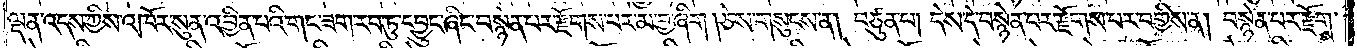ལྡན་འདས་ཀྱིས་འཁོར་སུན་འབྱིན་པའི་གང་ཟག་རབ་ཏུ་དབྱུང་ཞིང་བསྙེན་པར་རྫོགས་པར་མ་བྱ་ཞིག །ཅེས་གསུངས་ན། བཙུན་པ། དེས་དེ་བསྙེན་པར་རྫོགས་པར་བགྱིས་ན། བསྙེན་པར་རྫོགས་
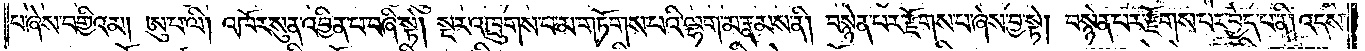པ་ཞེས་བགྱིའམ། ཨུ་པ་ལི། འཁོར་སུན་འབྱིན་པ་བཞི་སྟེ། སྔར་འཁྲུགས་པ་མ་གཏོགས་པའི་ལྷག་མ་རྣམས་ནི། བསྙེན་པར་རྫོགས་པ་ཞེས་བྱ་སྟེ། བསྙེན་པར་རྫོགས་པར་བྱེད་པ་ནི། འདས་
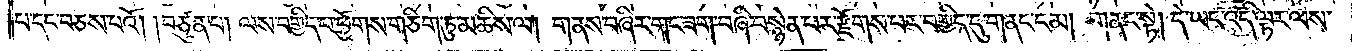པ་དང་བཅས་པའོ། །བཙུན་པ། ལས་བགྱིད་པ་ཕྱོགས་གཅིག་ཏུ་མཆིས་ལ། གནས་བཞིར་གང་ཟག་བཞི་བསྙེན་པར་རྫོགས་པར་བགྱིད་དུ་གནང་ངམ། གནང་སྟེ། དེ་ཡང་འདི་ལྟར་ལས་
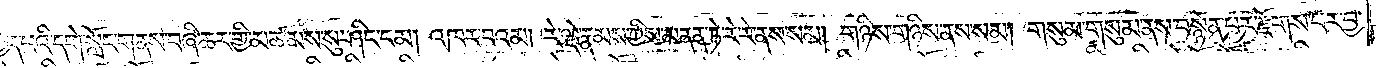བྱེད་པའི་དགེ་སློང་གནས་བཞི་ཆར་གྱི་མཚམས་སུ་ཤིང་ངམ། འཁར་བའམ། རེ་ལྡེ་རྣམས་ཀྱིས་མནན་ཏེ་རེ་རེ་ནས་སམ། གཉིས་གཉིས་ནས་སམ། གསུམ་གསུམ་ནས་བསྙེན་པར་རྫོགས་པར་བྱ་
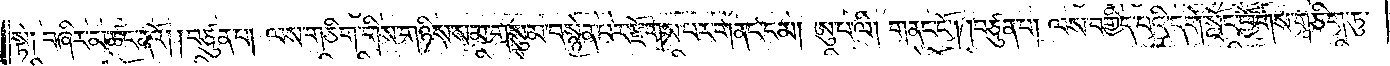སྟེ། བཞིར་མཚང་ནའོ། །བཙུན་པ། ལས་གཅིག་གིས་གཉིས་སམ་གསུམ་བསྙེན་པར་རྫོགས་པར་གནང་ངམ། ཨུ་པ་ལི། གནང་ངོ༌། །བཙུན་པ། ལས་བགྱིད་པའི་དགེ་སློང་ཕྱོགས་གཅིག་ཏུ་
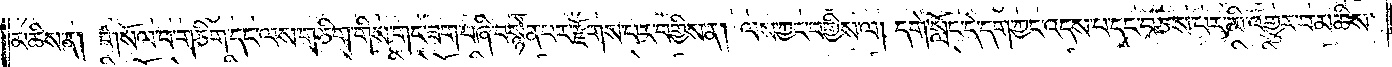མཆིས་ན། གསོལ་བ་གཅིག་དང་ལས་གཅིག་གིས་གང་ཟག་བཞི་བསྙེན་པར་རྫོགས་པར་བགྱིས་ན། ལས་ཀྱང་བགྱིས་ལ། དགེ་སློང་དེ་དག་ཀྱང་འདས་པ་དང་བཅས་པར་མི་འགྱུར་བ་མཆིས་
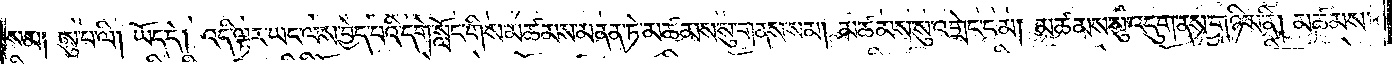སམ༑ ཨུ་པ་ལི། ཡོད་དེ། འདི་ལྟར་ཡང་ལས་བྱེད་པའི་དགེ་སློང་གིས་མཚམས་མནན་ཏེ་མཚམས་སུ་གནས་སམ། མཚམས་སུ་འགྲེང་ངམ། མཚམས་སུ་འདུག་ནས་གཉིས་ནི། མཚམས་
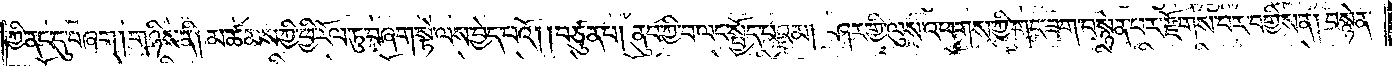ཀྱི་ནང་དུ་བཞག །གཉིས་ནི། མཚམས་ཀྱི་ཕྱི་རོལ་ཏུ་བཞག་སྟེ་ལས་བྱེད་པའོ། །བཙུན་པ། ནུབ་ཀྱི་བ་ལང་སྤྱོད་པའམ། ཤར་གྱི་ལུས་འཕགས་ཀྱི་གང་ཟག་བསྙེན་པར་རྫོགས་པར་བགྱིས་ན། བསྙེན་
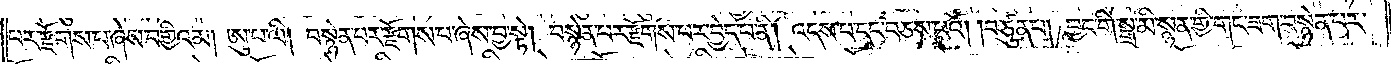པར་རྫོགས་པ་ཞེས་བགྱིའམ། ཨུ་པ་ལི། བསྙེན་པར་རྫོགས་པ་ཞེས་བྱ་སྟེ། བསྙེན་པར་རྫོགས་པར་བྱེད་པ་ནི། འདས་པ་དང་བཅས་པའོ། །བཙུན་པ། བྱང་གི་སྒྲ་མི་སྙན་གྱི་གང་ཟག་བསྙེན་པར་
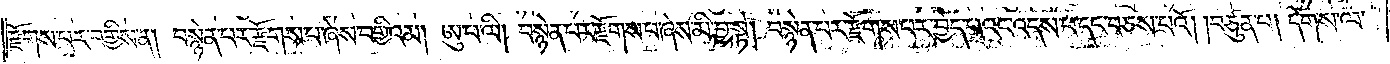རྫོགས་པར་བགྱིས་ན། བསྙེན་པར་རྫོགས་པ་ཞེས་བགྱིའམ། ཨུ་པ་ལི། བསྙེན་པར་རྫོགས་པ་ཞེས་མི་བྱ་སྟེ། བསྙེན་པར་རྫོགས་པར་བྱེད་པའང་འདས་པ་དང་བཅས་པའོ། །བཙུན་པ། དོགས་ལ་
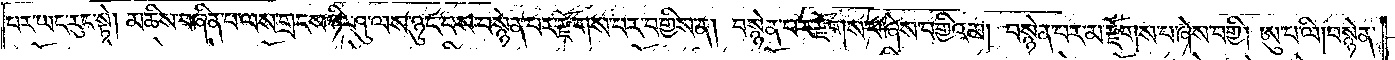པར་ཡང་རུང་སྟེ། མཆིས་བཞིན་པ་ལས་གྲངས་ཉི་ཤུ་ལས་ཉུང་བས་བསྙེན་པར་རྫོགས་པར་བགྱིས་ན། བསྙེན་པར་རྫོགས་པ་ཞེས་བགྱིའམ། བསྙེན་པར་མ་རྫོགས་པ་ཞེས་བགྱི། ཨུ་པ་ལི། བསྙེན་
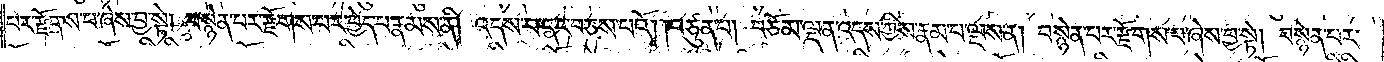པར་རྫོགས་པ་ཞེས་བྱ་སྟེ། བསྙེན་པར་རྫོགས་པར་བྱེད་པ་རྣམས་ནི། འདས་པ་དང་བཅས་པའོ། །བཙུན་པ། བཅོམ་ལྡན་འདས་ཀྱིས་རྣམ་པ་ལྔས་ན། བསྙེན་པར་རྫོགས་པ་ཞེས་བྱ་སྟེ། བསྙེན་པར་
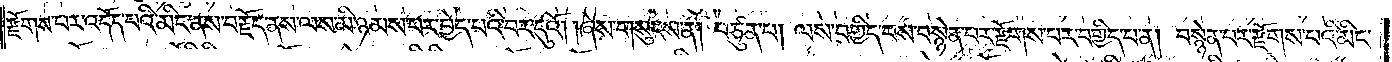རྫོགས་པར་འདོད་པའི་མིང་ནས་བརྗོད་ནས་ལས་མི་ཉམས་པར་བྱེད་པའི་བར་དུའོ། །ཞེས་གསུངས་ན། བཙུན་པ། ལས་བགྱིད་པས་བསྙེན་པར་རྫོགས་པར་བགྱིད་པ་ན། བསྙེན་པར་རྫོགས་པའི་མིང་
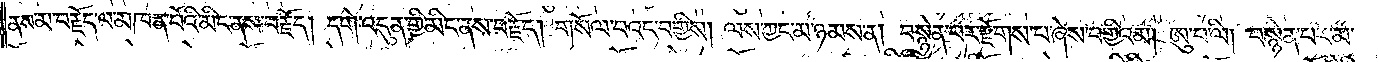ནས་མ་བརྗོད་ལ་མཁན་པོའི་མིང་ནས་བརྗོད། དགེ་འདུན་གྱི་མིང་ནས་བརྗོད། གསོལ་བའང་བགྱིས། ལས་ཀྱང་མ་ཉམས་ན། བསྙེན་པར་རྫོགས་པ་ཞེས་བགྱིའམ། ཨུ་པ་ལི། བསྙེན་པར་མ་
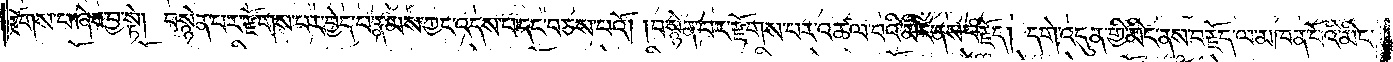རྫོགས་པ་ཞེས་བྱ་སྟེ། བསྙེན་པར་རྫོགས་པར་བྱེད་པ་རྣམས་ཀྱང་འདས་པ་དང་བཅས་པའོ། །བསྙེན་པར་རྫོགས་པར་འཚལ་བའི་མིང་ནས་བརྗོད། དགེ་འདུན་གྱི་མིང་ནས་བརྗོད་ལ་མཁན་པོའི་མིང་
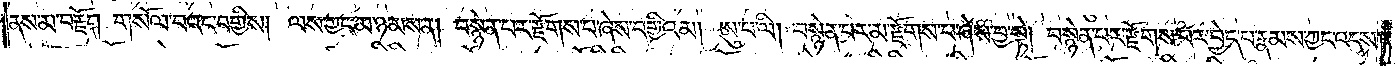ནས་མ་བརྗོད། གསོལ་བའང་བགྱིས། ལས་ཀྱང་མ་ཉམས་ན། བསྙེན་པར་རྫོགས་པ་ཞེས་བགྱིའམ། ཨུ་པ་ལི། བསྙེན་པར་མ་རྫོགས་པ་ཞེས་བྱ་སྟེ། བསྙེན་པར་རྫོགས་པར་བྱེད་པ་རྣམས་ཀྱང་འདས་
